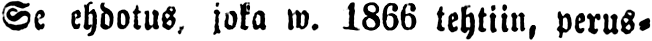Se ehdotus, joka w. 1866 tehtiin, perus-
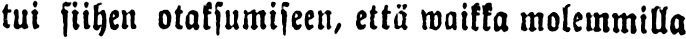tui siihen otaksumiseen, että waikka molemmilla
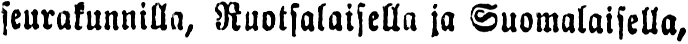seurakunnilla, Ruotsalaisella ja Suomalaisella,
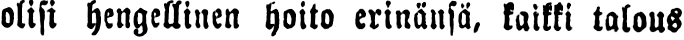olisi hengellinen hoito erinänsä, kaikki talous
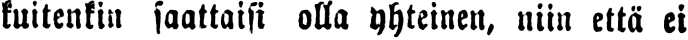kuitenkin saattaisi olla yhteinen, niin että ei
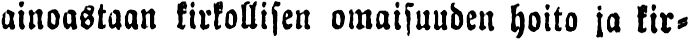ainoastaan kirkollisen omaisuuden hoito ja kir-
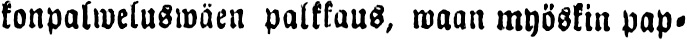konpalweluswäen palkkaus, waan myöskin pap-
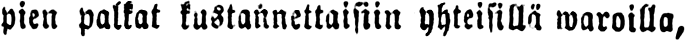pien palkat kustannettaisiin yhteisillä waroilla,
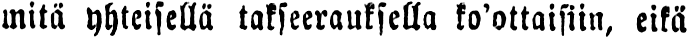mitä yhteisellä takseerauksella ko'ottaisiin, eikä
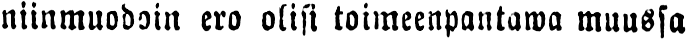niinmuodoin ero olisi toimeenpantawa muussa
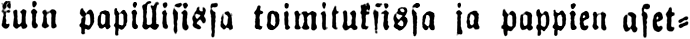kuin papillisissa toimituksissa ja pappien aset-
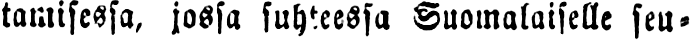tamisessa, jossa suhteessa Suomalaiselle seu-
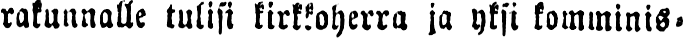rakunnalle tulisi kirkkoherra ja yksi komminis-
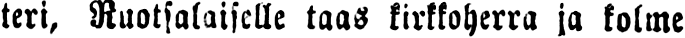teri, Ruotsalaiselle taas kirkkoherra ja kolme
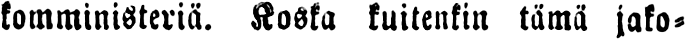komministeriä. Koska kuitenkin tämä jako-
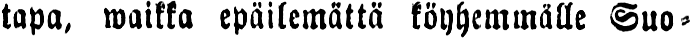tapa, waikka epäilemättä köyhemmälle Suo-
